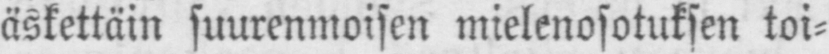äskettäin suurenmoisen mielenosotuksen toi-
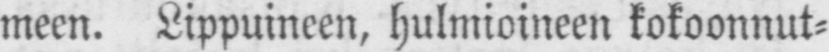meen. Lippuineen, hulmioineen kokoonnut-
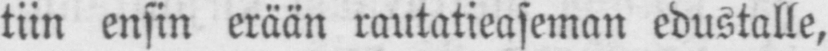tiin ensin erään rautatieaseman edustalle,
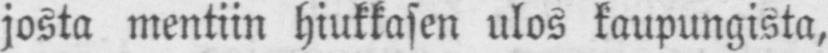josta mentiin hiukkasen ulos kaupungista,
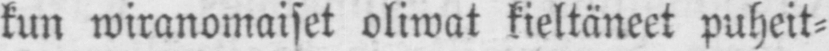kun wiranomaiset oliwat kieltäneet puheit-
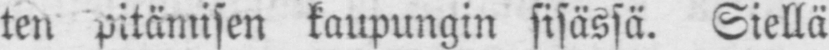ten pitämisen kaupungin sisässä. Siellä
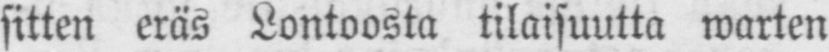sitten eräs Lontoosta tilaisuutta warten
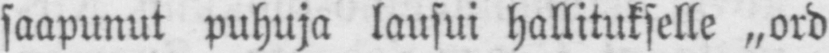saapunut puhuja lausui hallitukselle „ord
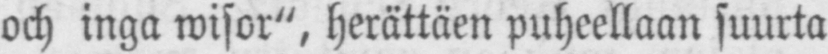och inga wisor", herättäen puheellaan suurta
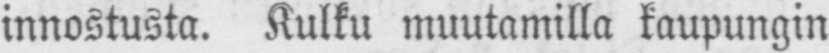innostusta. Kulku muutamilla kaupungin
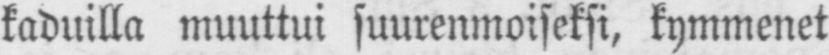kaduilla muuttui suurenmoiseksi, kymmenet
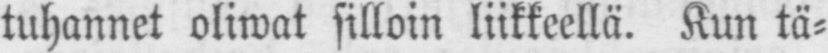tuhannet oliwat silloin liikkeellä. Kun tä-
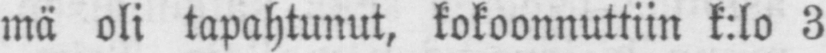mä oli tapahtunut, kokoonnuttiin k:lo 3
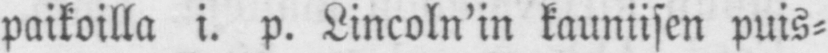paikoilla i. p. Lincoln'in kauniisen puis-
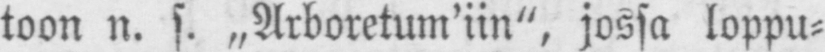toon n. s. „Arboretum'iin", jossa loppu-
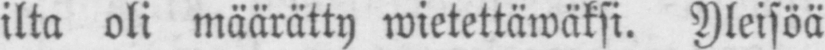ilta oli määrätty wietettäwäksi. Yleisöä
